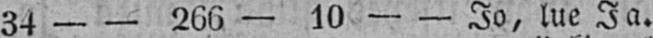34 — — 266 — 10 — — Jo lue Ja.
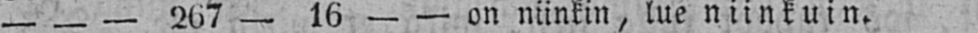— — — 267 — 16 — — on niinkin, lue niinkuin.
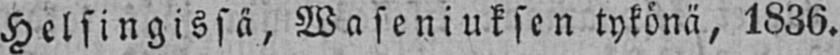Helsingissä, Waseniuksen tykonä, 1836.
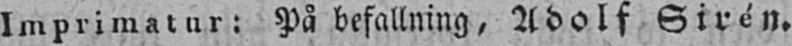Imprimatur: På befallning, Adolf Sirén.
